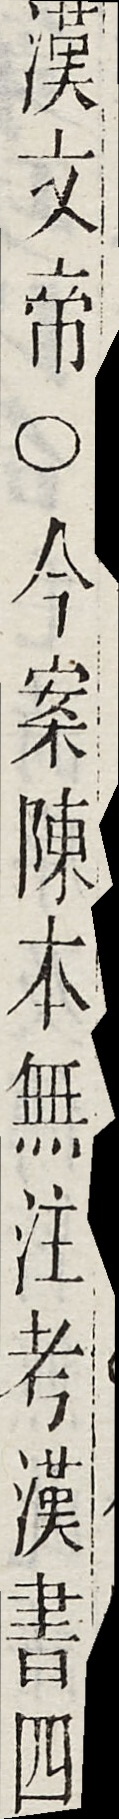漢文帝○今案陳本無注考漢書四
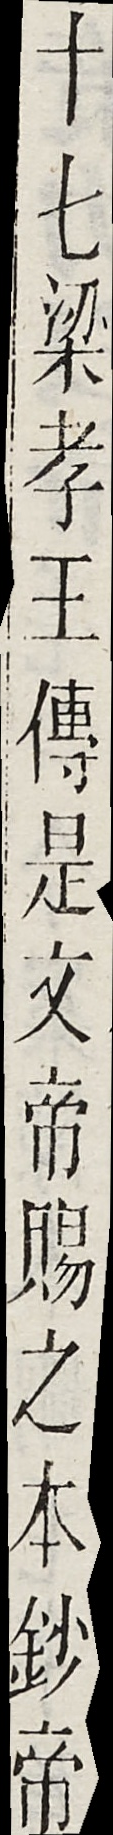十七梁孝王傳是文帝賜之本鈔帝
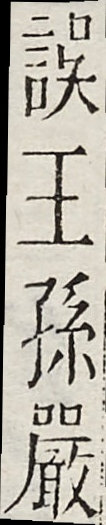誤王孫嚴
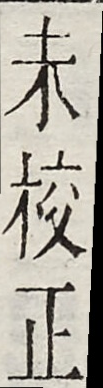未校正
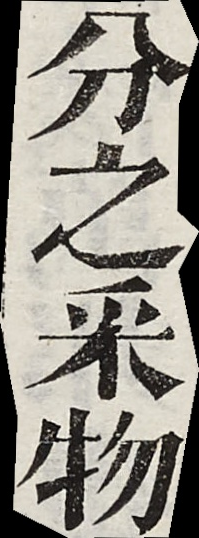分之采物
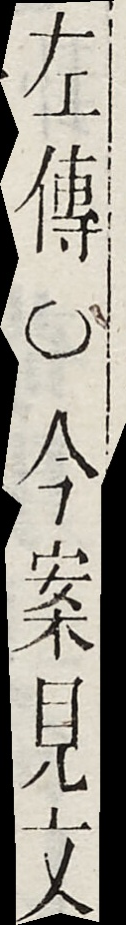左傳○今案見文
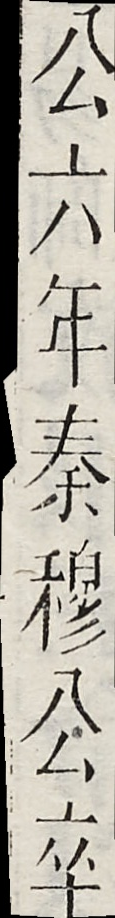公六年秦穆公卒
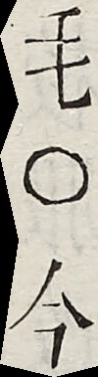毛○今
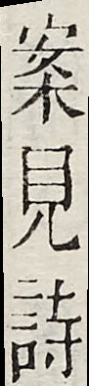案見詩
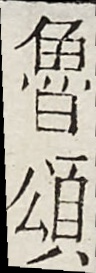魯頌
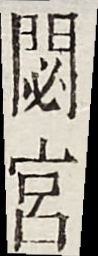閟宮
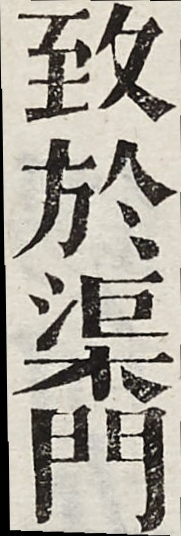致於渠門
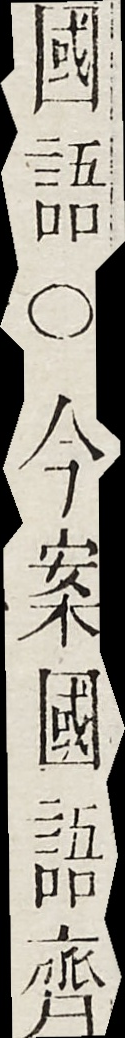國語○今案國語齊
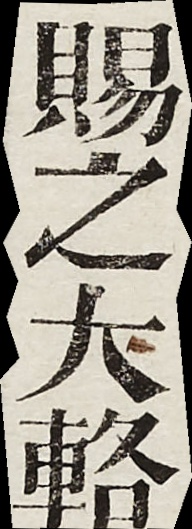賜之大輅
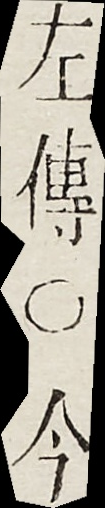左傳○今
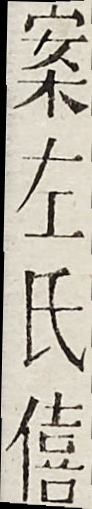案左氏僖
